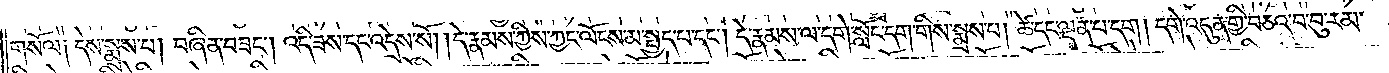གསོལ༑ དེས་སྨྲས་པ། བཞིན་བཟང༌། འདི་ཟས་དང་འདྲེས་སོ། །དེ་རྣམས་ཀྱིས་ཀྱང་ལོངས་མ་སྤྱད་པ་དང༌། དེ་རྣམས་ལ་དགེ་སློང་དག་གིས་སྨྲས་པ། ཚེ་དང་ལྡན་པ་དག །དགེ་འདུན་གྱི་བཅའ་བ་བུ་རམ་
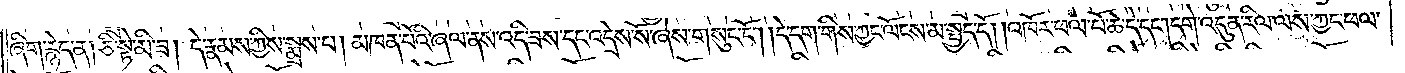ཞིག་རྙེད་ན། ཅི་སྟེ་མི་ཟ། དེ་རྣམས་ཀྱིས་སྨྲས་པ། མཁན་པོའི་ཞལ་ནས་འདི་ཟས་དང་འདྲེས་སོ་ཞེས་གསུང་ངོ༌། །དེ་དག་གིས་ཀྱང་ལོངས་མ་སྤྱད་དོ། །འཁོར་ཕལ་པོ་ཆེ་དེ་དང༌། དགེ་འདུན་རིལ་ལས་ཀྱང་ཕལ་
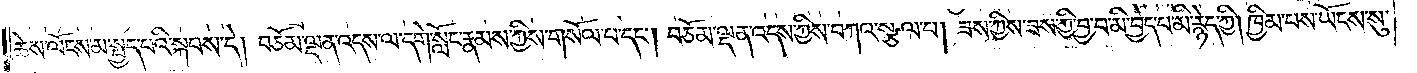ཆེས་ལོངས་མ་སྤྱད་པའི་སྐབས་དེ། བཅོམ་ལྡན་འདས་ལ་དགེ་སློང་རྣམས་ཀྱིས་གསོལ་པ་དང༌། བཅོམ་ལྡན་འདས་ཀྱིས་བཀའ་སྩལ་པ། ཟས་ཀྱིས་ཟས་ཀྱི་བྱ་བ་མི་བྱེད་པ་མི་རྙེད་ཀྱི། ཁྱིམ་པས་ཡོངས་སུ་
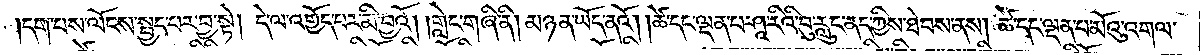དག་པས་ལོངས་སྤྱད་པར་བྱ་སྟེ། དེ་ལ་འགྱོད་པར་མི་བྱའོ། །གླེང་གཞི་ནི། མཉན་ཡོད་ནའོ། །ཚེ་དང་ལྡན་པ་ཤཱ་རིའི་བུ་རླུང་ནད་ཀྱིས་ཐེབས་ནས། ཚེ་དང་ལྡན་པ་མོའུ་འགལ་
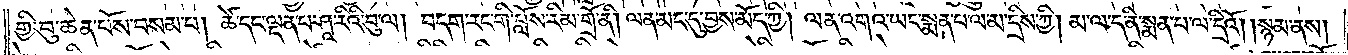གྱི་བུ་ཆེན་པོས་བསམ་པ། ཚེ་དང་ལྡན་པ་ཤཱ་རིའི་བུ་ལ། བདག་རང་གི་བློས་རིམ་གྲོ་ནི། ལན་མང་དུ་བྱས་མོད་ཀྱི། ལན་འགའ་ཡང་སྨན་པ་ལ་མ་དྲིས་ཀྱི། མ་ལ་ད་ནི་སྨན་པ་ལ་དྲིའོ། །སྙམ་ནས།
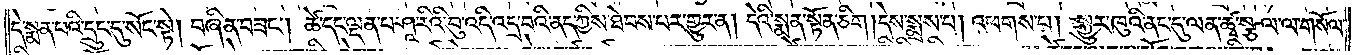དེ་སྨན་པའི་དྲུང་དུ་སོང་སྟེ། བཞིན་བཟང༌། ཚེ་དང་ལྡན་པ་ཤཱ་རིའི་བུ་འདི་འདྲ་བའི་ནད་ཀྱིས་ཐེབས་པར་གྱུར་ན། དེའི་སྨན་སྟོན་ཅིག །དེས་སྨྲས་པ། འཕགས་པ། སྐྱུར་ཁུའི་ནང་དུ་ལན་ཚྭ་སྩལ་ལ་གསོལ་
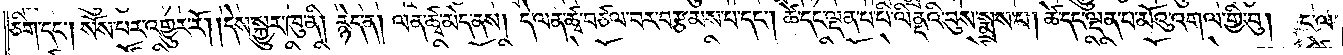ཅིག་དང༌། སོས་པར་འགྱུར་རོ། །དེས་སྐྱུར་ཁུ་ནི། རྙེད་ན། ལན་ཚྭ་མེད་ནས། དེ་ལན་ཚྭ་བཙལ་བར་བརྩམས་པ་དང༌། ཚེ་དང་ལྡན་པ་པིལནྡའི་བུས་སྨྲས་པ། ཚེ་དང་ལྡན་པ་མོའུ་འགལ་གྱི་བུ། ང་ལ་
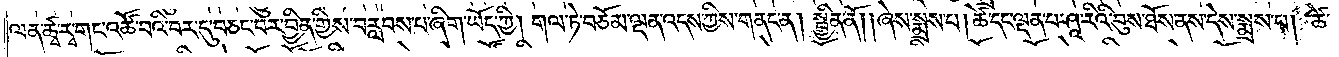ལན་ཚྭ་རྭ་གང་འཚོ་བའི་བར་དུ་བཅང་བར་བྱིན་གྱིས་བརླབས་པ་ཞིག་ཡོད་ཀྱི། གལ་ཏེ་བཅོམ་ལྡན་འདས་ཀྱིས་གནང་ན། སྦྱིན་ནོ། །ཞེས་སྨྲས་པ། ཚེ་དང་ལྡན་པ་ཤཱ་རིའི་བུས་ཐོས་ནས་དེས་སྨྲས་པ། ཚེ་
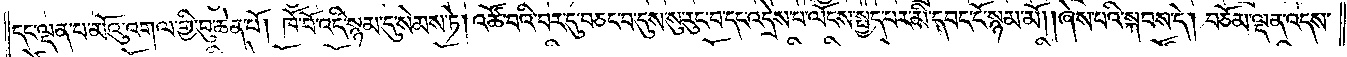དང་ལྡན་པ་མོའུ་འགལ་གྱི་བུ་ཆེན་པོ། ཁོ་བོ་འདི་སྙམ་དུ་སེམས་ཏེ། འཚོ་བའི་བར་དུ་བཅང་བ་དུས་སུ་རུང་བ་དང་འདྲེས་པ་ལོངས་སྤྱད་པར་མི་དབང་ངོ་སྙམ་མོ། །ཞེས་པའི་སྐབས་དེ། བཅོམ་ལྡན་འདས་
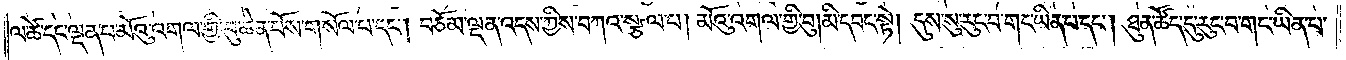ལ་ཚེ་དང་ལྡན་པ་མོའུ་འགལ་གྱི་བུ་ཆེན་པོས་གསོལ་བ་དང༌། བཅོམ་ལྡན་འདས་ཀྱིས་བཀའ་སྩལ་པ། མོའུ་འགལ་གྱི་བུ།མི་དབང་སྟེ། དུས་སུ་རུང་བ་གང་ཡིན་པ་དང༌། ཐུན་ཚོད་དུ་རུང་བ་གང་ཡིན་པ་
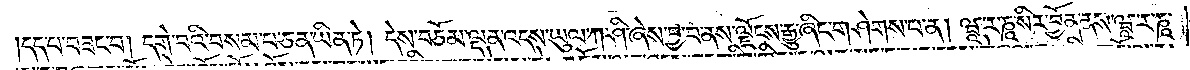དད་པ་བཟང་བ། དགེ་བའི་བསམ་པ་ཅན་ཡིན་ཏེ། དེས་བཅོམ་ལྡན་འདས་ཡུལ་ཀ་ཤི་ཞེས་བྱ་བ་ནས་ལྗོངས་རྒྱུ་ཞིང་གཤེགས་པ་ན། ཝཱ་ར་ཎཱ་སིར་བྱོན་ནས་ཝཱ་ར་ཎཱ་
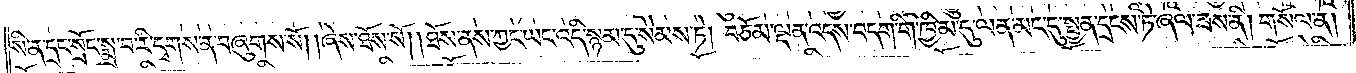སི་ན་དྲང་སྲོང་སྨྲ་བ་རི་དྭགས་ན་བཞུགས་སོ། །ཞེས་ཐོས་སོ། །ཐོས་ནས་ཀྱང་ཡང་འདི་སྙམ་དུ་སེམས་ཏེ། བཅོམ་ལྡན་འདས་བདག་གི་ཁྱིམ་དུ་ལན་མང་དུ་སྤྱན་དྲངས་ཏེ་ཞལ་ཟས་ནི། གསོལ་ན།
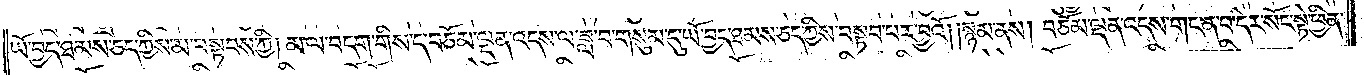ཡོ་བྱད་ཐམས་ཅད་ཀྱིས་མ་བསྟབས་ཀྱི། མ་ལ་བདག་གིས་ད་བཅོམ་ལྡན་འདས་ལ་ཟླ་བ་གསུམ་དུ་ཡོ་བྱད་ཐམས་ཅད་ཀྱིས་བསྟབ་པར་བྱའོ། །སྙམ་ནས། བཅོམ་ལྡན་འདས་གང་ན་བ་དེར་སོང་སྟེ་ཕྱིན་
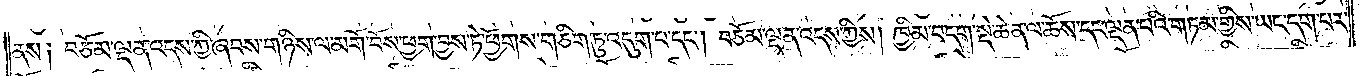ནས༑ བཅོམ་ལྡན་འདས་ཀྱི་ཞབས་གཉིས་ལ་མགོ་བོས་ཕྱག་བྱས་ཏེ་ཕྱོགས་གཅིག་ཏུ་འདུག་པ་དང༌། བཅོམ་ལྡན་འདས་ཀྱིས། ཁྱིམ་བདག་སྡེ་ཆེན་ལ་ཆོས་དང་ལྡན་པའི་གཏམ་གྱིས་ཡང་དག་པར་
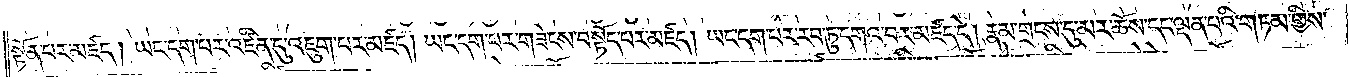སྟོན་པར་མཛད། ཡང་དག་པར་འཛིན་དུ་འཇུག་པར་མཛད། ཡང་དག་པར་གཟེངས་བསྟོད་པར་མཛད། ཡང་དག་པར་རབ་ཏུ་དགའ་བར་མཛད་དེ། རྣམ་གྲངས་དུ་མར་ཆོས་དང་ལྡན་པའི་གཏམ་གྱིས་
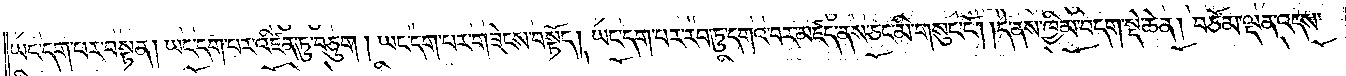ཡང་དག་པར་བསྟན། ཡང་དག་པར་འཛིན་ཏུ་བཅུག །ཡང་དག་པར་གཟེངས་བསྟོད། ཡང་དག་པར་རབ་ཏུ་དགའ་བར་མཛད་ནས་ཅང་མི་གསུང་ངོ༌། །དེ་ནས་ཁྱིམ་བདག་སྡེ་ཆེན། བཅོམ་ལྡན་འདས་
